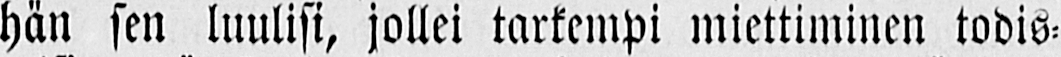hän sen luulisi, jollei tarkempi miettiminen todis-
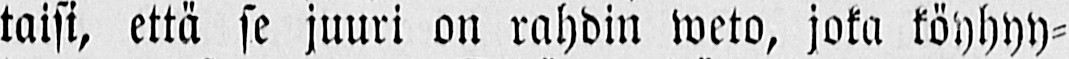taisi, että se juuri on rahdin weto, joka köyhyy-
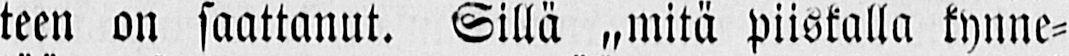teen on saattanut. Sillä „mitä piiskalla kynne-
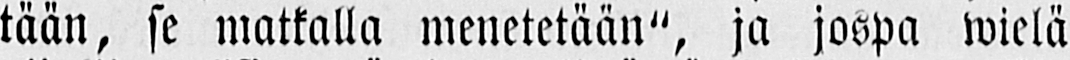tään, se matkalla menetetään", ja jospa wielä
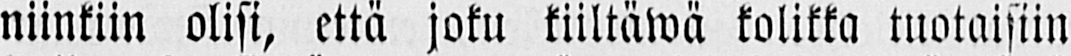niinkiin olisi, että joku kiiltäwä kalikka tuotaisiin
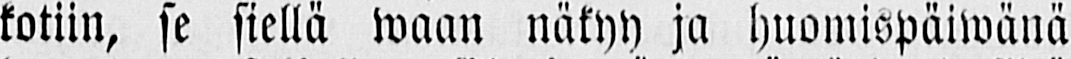kotiin, se siellä waan näkyy ja huomispäiwänä
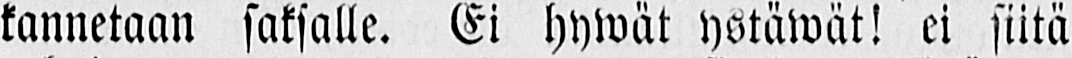kannetaan saksalle. Ei hywät ystäwät! ei siitä
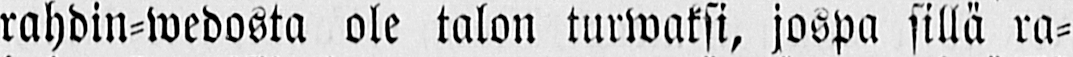rahdin-wedosta ole talon turwaksi, jospa sillä ra-
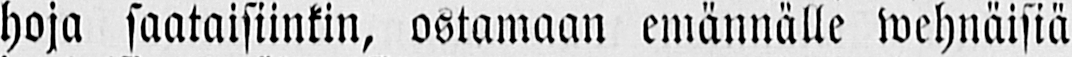hoja saataisiinkin, ostamaan emännälle wehnäisiä
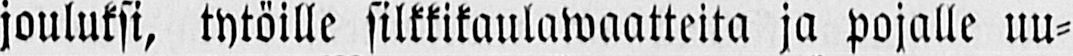jouluksi, tytöille silkkikaulawaatteita ja pojalle uu-
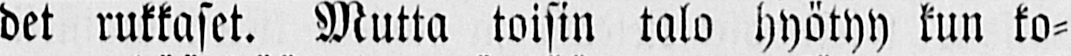det rukkaset. Mutta toisin talo hyötyy kun ko-
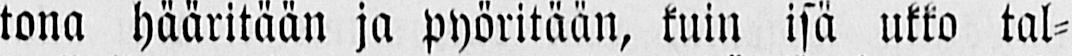tona hääritään ja pyöritään, kuin isä ukko tal-
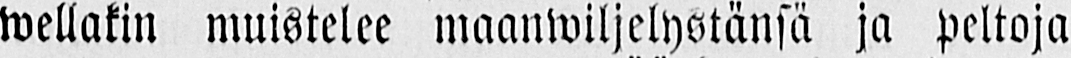wellakin muistelee maanwiljelystänsä ja peltoja
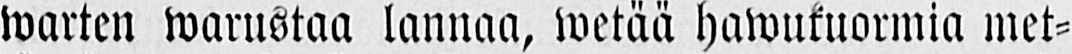warten warustaa lannaa, wetää hawukuormia met-
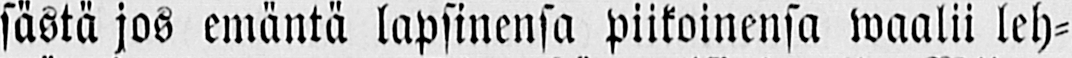sästä jos emäntä lapsinensa piikoinensa waalii leh-
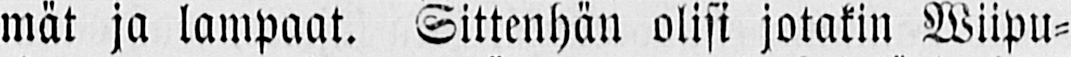mät ja lampaat. Sittenhän olisi jotakin Wiipu-
